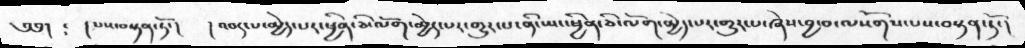༄༅། ༴  །པས་བསྟན་ཏོ་།  །འབད་པ་མྱེད་པར་ཕྱིན་ཅི་ལོག་མྱེད་པར་གྱུར་པ་ནི་ཡང་ཕྱིན་ཅི་ལོག་མྱེད་པར་གྱུར་པ་ཞེས་བྱ་བ་ལསོགས་པས་བསྟན་ཏོ་།
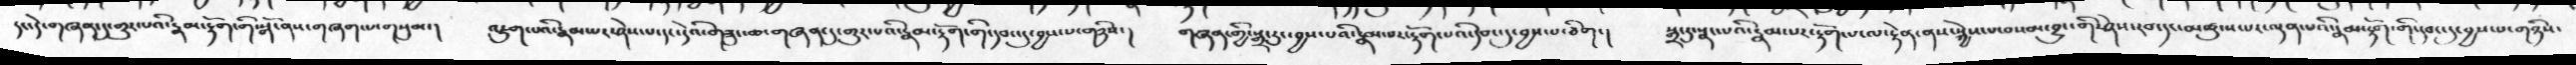དང་དེ་གཞན་དུ་གྱུར་པའི་རྣམ་རྟོག་གི་སྒོ་ནས་གཞག་པ་གསུམ་།   འཇུག་པའི་རྣམ་པར་ཤེས་པ་དང་དེའི་གཟུང་ཆ་གཞན་དུ་གྱུར་པའི་རྣམ་རྟོག་གི་དབང་དུ་བྱས་པ་གཉིས་།  གཞན་གྱི་སྒྲ་རུང་བྱས་པའི་རྣམ་པར་རྟོག་པའི་དབང་དུ་བྱས་པ་ཅིག་།   སྒྲ་རུ་སྣང་པའི་རྣམ་པར་རྟོག་པ་ལ་རྟེན་ནས་སྐྱེས་པ་བསམ་བྱུང་གི་ཤེས་རབ་དང་མཚུངས་པར་ལྡན་པའི་རྣམ་རྟོག་གི་དབང་དུ་བྱས་པ་གཉིས་
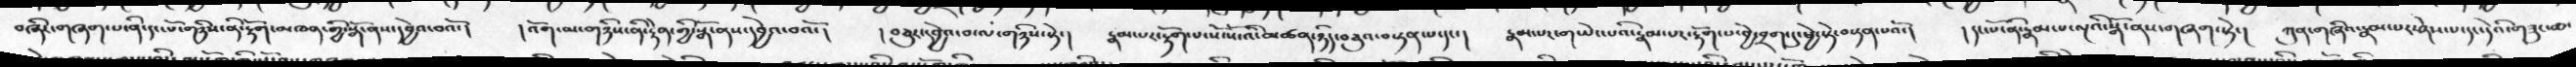བཞིར་གཞག་པ་ནི་དང་པོ་གཉིས་ནི་རྟོག་མཁན་གྱི་སྒོ་ནས་དབྱེའ་བའོ་།   །འོག་མ་གཉིས་ནི་རྟེན་གྱི་སྒོ་ནས་དབྱེའ་བའོ་།   །བཅུར་དབྱེའ་བ་ལ་གཉིས་སྟེ་།  རྣམ་པར་རྟོག་པ་སོ་སོ་འི་མཚན་ཉིད་བཅུའ་བསྟན་པ་དང་།  རྣམ་པར་གཡེང་པའི་རྣམ་པར་རྟོག་པ་བྱེ་བྲག་དུ་ཕྱེ་སྟེ་བསྟན་པའོ་།  །དང་པོ་ནི་རྣམ་པ་ལྔའི་སྒོ་ནས་གཞག་སྟེ་།  ཀུན་གཞིའ་རྣམ་པར་ཤེས་པ་དང་དེའི་གཟུང་ཆ་
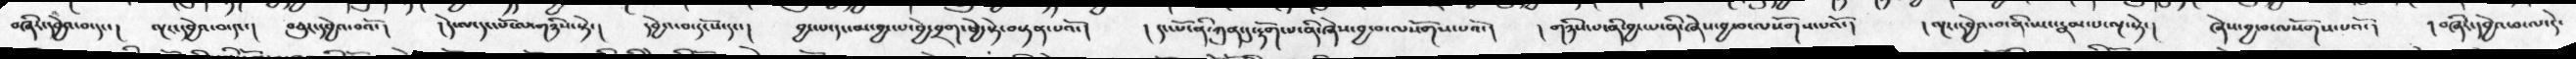བཞིར་དབྱེའ་བ་དང་།  ལྔར་དབྱེའ་བ་དང་།  བཅུར་དབྱེའ་བའོ་།  །དེ་ལ་དང་པོ་ལ་གཉིས་སྟེ་།  དབྱེའ་བ་དང་པོ་དང་།  བྱང་པ་དང་མ་བྱང་པ་བྱེ་བྲག་ཕྱེ་སྟེ་བསྟན་པའོ་།  །དང་པོ་ནི་ཀུན་དུ་རྟོག་པ་ནི་ཞེས་བྱ་བ་ལསོགས་པའོ་།  ། གཉིས་པ་ནི་བྱང་པ་ནི་ཞེས་བྱ་བ་ལསོགས་པའོ་།  །ལྔར་དབྱེའ་བ་ནི་ཡང་རྣམ་པ་ལྔ་སྟེ་།  ཞེས་བྱ་བ་ལསོགས་པའོ་།  །བཞིར་དབྱེའ་བ་ལ་དེ་
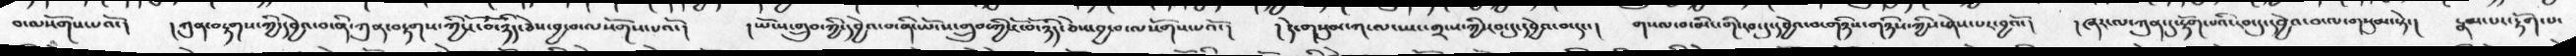བ་ལསོགས་པའོ་།  །ཀུན་བརྟགས་ཀྱི་དབྱེའ་བ་ནི་ཀུན་བརྟགས་ཀྱི་ངོ་བོ་ཉིད་ཅེས་བྱ་བ་ལསོགས་པའོ་།  །ཡོངས་གྲུབ་ཀྱི་དབྱེའ་བ་ནི་ཡོངས་གྲུབ་ཀྱི་ངོ་བོ་ཉིད་ཅེས་བྱ་བ་ལསོགས་པའོ་།   །དེ་གསུམ་ཀ་ལ་ཡང་གྲངས་ཀྱི་དབང་དུ་དབྱེའ་བ་དང་།  གསལ་བ་མིང་གི་རབ་དུ་དབྱེའ་བ་གཉིས་གཉིས་ཀྱིས་ཤེས་པར་བྱའོ་།  །ཞར་ལ་ཀུན་དུ་རྟོག་པའི་རབ་དུ་དབྱེའ་བ་ལ་གསུམ་སྟེ་།  རྣམ་པར་རྟོག་པ་
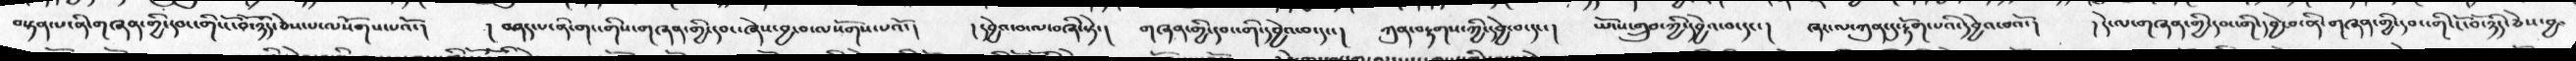བསྟན་པ་ནི་གཞན་གྱི་དབང་གི་ངོ་བོ་ཉིད་ཅེས་པ་ལསོགས་པའོ་།  ། བཤད་པ་ནི་གང་གིས་གཞན་གྱི་དབང་ཞེས་བྱ་བ་ལསོགས་པའོ་།  །དབྱེའ་བ་ལ་བཞི་སྟེ་།  གཞན་གྱི་དབང་གི་དབྱེའ་བ་དང་།  ཀུན་བརྟགས་ཀྱི་དབྱེ་བ་དང་།  ཡོངས་གྲུབ་ཀྱི་དབྱེའ་བ་དང་།  ཞར་ལ་ཀུན་རྟོག་པའི་དབྱེའ་བའོ་།   །དེ་ལ་གཞན་གྱི་དབང་གི་དབྱེ་བ་ནི་གཞན་གྱི་དབང་གི་ངོ་བོ་ཉིད་ཅེས་བྱ་
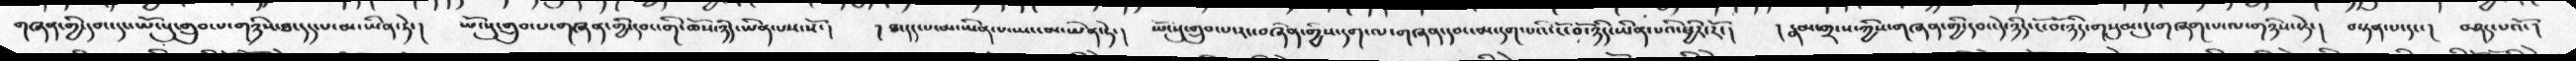གཞན་གྱི་དབང་དང་ཡོངསུ་གྲུབ་པ་གཉིས་ཐ་དད་པ་མ་་ཡིན་ཏེ་།  ཡོངསུ་གྲུབ་པ་གཞན་གྱིདབང་གི་ཆོས་ཉིད་ཡིན་པས་སོ་།   །ཐ་དད་པ་མ་ཡིན་པ་ཡང་མ་ཡིན་ཏེ་།  ཡོངསུ་གྲུབ་པ་རང་བཞིན་གྱིས་དག་ལ་གཞན་དབང་མ་དག་པའི་ངོ་བོ་ཉིད་ཡིན་པའི་ཕྱིར་རོ་།   །རྣམ་གྲངས་ཀྱིས་གཞན་གྱི་དབང་དེ་ཉིད་ངོ་བོ་ཉིད་གསུམ་དུ་གཞག་པ་ལ་གཉིས་སྟེ་།   བསྟན་པ་དང་།    བཤད་པའོ་།
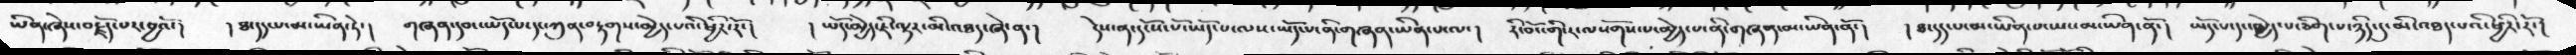ཡིན་ཞེས་བརྗོད་པར་བྱའོ་།   །ཐ་དད་པ་མ་ཡིན་ཏེ་།   གཞན་དབང་ཡོད་པ་དང་ཀུན་བརྟགས་མྱེད་པའི་ཕྱིར་རོ་།   །ཡོད་མྱེད་ཇི་ལྟར་མི་འཐད་ཞེ་ན་།   དེས་ན་དངོས་པོ་ཡོད་པ་ལས་ཡོད་པ་ནི་གཞན་ཡིན་པ་ལ་།  རི་བོང་གི་ར་ལསོགས་པ་མྱེད་པ་ནི་གཞན་མ་ཡིན་ནོ་།   །ཐ་དད་པ་མ་ཡིན་པ་ཡང་མ་ཡིན་ནོ་།   ཡོད་པ་དང་མྱེད་པ་ཅིག་པ་ཉིད་དུ་མི་འཐད་པའི་ཕྱིར་རོ་།
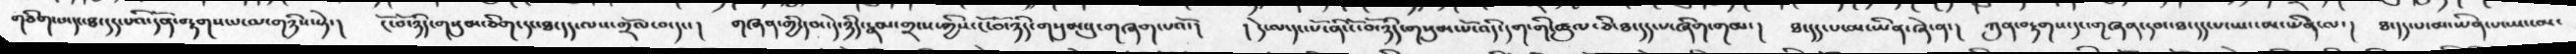གཅིག་པ་དང་ཐ་དད་པའི་དོན་བརྟགས་པ་ལ་གཉིས་སྟེ་།  ངོ་བོ་ཉིད་གསུམ་ཅིག་དང་ཐ་དད་ལས་གྲོལ་བ་དང་།  གཞན་གྱི་དབང་དེ་ཉིད་རྣམ་གྲངས་ཀྱིས་ངོ་བོ་ཉིད་གསུམ་དུ་གཞག་པའོ་།  །དེ་ལ་དང་པོ་ནི་ངོ་བོ་ཉིད་གསུམ་པོ་འདི་དག་གི་ཚུལ་ཅི་ཐ་དད་པ་ཞིག་གམ་།  ཐ་དད་པ་མ་ཡིན་ཞེ་ན་།   ཀུན་བརྟགས་དང་གཞན་དབང་ཐ་དད་པ་ཡང་མ་ཡིན་ལ་།   ཐ་དད་པ་མ་ཡིན་པ་ཡང་མ་
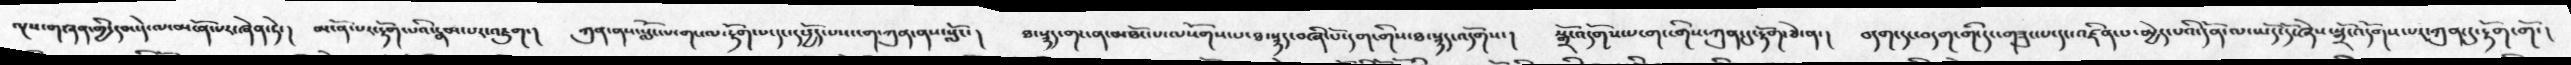ལྔས་གཞན་གྱི་དབང་དེ་ལ་མངོན་པར་ཞེན་ཏེ་།  མངོན་པར་རྟོག་པའི་རྣམ་པར་འཇུག་།   ཀུན་ནས་སློང་པ་གང་ལ་རྟོག་པདང་དཔྱོད་པས་ངག་ཀུན་ནས་སློང་།   ཐ་སྙད་གང་ན་མཐོང་པ་ལསོགས་པ་ཐ་སྙད་བཞི་པོ་དག་གིས་ཐ་སྙད་འདོགས་།  སྒྲོ་འདོགས་པ་གང་གིས་ཀུན་དུ་རྟོག་ཅེ་ན་།  བདག་དང་བདག་གི་དང་གཟུང་པདང་འཛིན་པ་མྱེད་པའི་དོན་ལ་ཡོད་དོ་ཞེས་སྒྲོ་འདོགས་པར་ཀུན་དུ་རྟོག་གོ་།
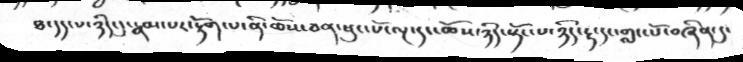ཐ་དད་པ་ཉིད་དུ་རྣམ་པར་རྟོག་པ་ནི་ཆོས་ཅན་ཕུང་པོ་ལྔ་དང་ཆོས་ཉིད་སྟོང་པ་ཉིད་རྟ་དང་གླང་པོ་བཞིན་དུ་
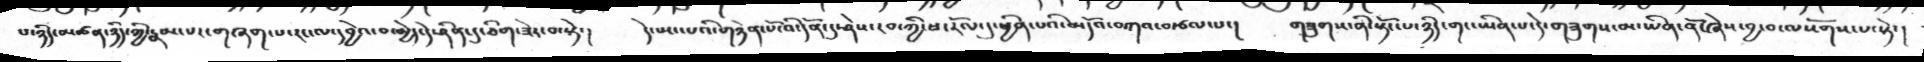པ་ཉིད་མཚན་ཉིད་ཀྱི་རྣམ་པར་གཞག་པ་རང་ལ་དབྱེའ་བ་མྱེད་དེ་ཤིན་དུ་ཅིག་ཟེར་བ་སྟེ་།   དེ་སྤང་པའི་གཉེན་པོ་འི་དོན་དུ་ཤེས་རབ་ཀྱི་ཕ་རོལ་དུ་ཕྱིན་པའི་མདོའ་བཀའ་བརྩལ་པ་།  གཟུགས་ནི་སྟོང་པ་ཉིད་གང་ཡིན་པ་དེ་གཟུགས་མ་ཡིན་ནོ་ཞེས་བྱ་བ་ལསོགས་པ་སྟེ་།
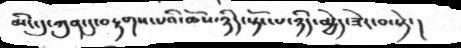མིང་དུ་ཀུན་དུ་བརྟགས་པའི་ཆོས་ཉིད་སྟོང་པ་ཉིད་མྱེད་ཟེར་བ་སྟེ་།
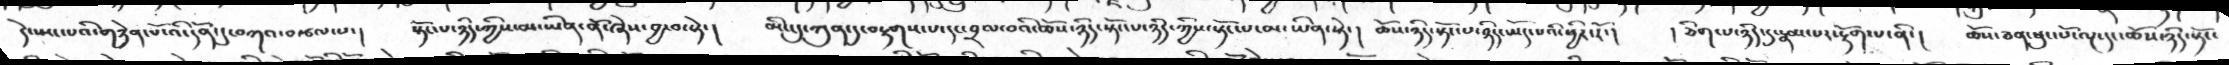དེ་སྤང་པའི་གཉེན་པོ་འི་དོན་དུ་བཀའ་བརྩལ་པ་།   སྟོང་པ་ཉིད་ཀྱིས་མ་ཡིན་ནོ་ཞེས་བྱ་བ་སྟེ་།   མིང་དུ་ཀུན་དུ་བརྟགས་པ་དང་བྲལ་བའི་ཆོས་ཉིད་སྟོང་པ་ཉིད་ཀྱིས་སྟོང་པ་མ་ཡིན་སྟེ་།  ཆོས་ཉིད་སྟོང་པ་ཉིད་ཡོད་པའི་ཕྱིར་རོ་།  །ཅིག་པ་ཉིད་དུ་རྣམ་པར་རྟོག་པ་ནི་།   ཆོས་ཅན་ཕུང་པོ་ལྔ་དང་ཆོས་ཉིད་སྟོང་
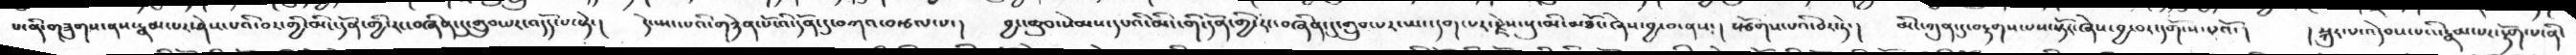པ་ནི་གཟུགས་ནས་རྣམ་པར་ཤེས་པའི་བར་གྱི་མིང་དོན་གྱི་རང་བཞིན་དུ་གྲུབ་པར་འདོད་པ་སྟེ་།   དེ་སྤང་པའི་གཉེན་པོ་འི་དོན་དུ་བཀའ་བརྩལ་པ་།  བྱང་ཆུབ་སེམས་དཔའི་མིང་གི་དོན་གྱི་རང་བཞིན་དུ་་གྲུབ་པར་ཡང་དག་པར་རྗེས་སུ་མི་མཐོང་ཞེས་བྱ་བ་ནས་།  སྩོགས་པའི་བར་ཏེ་།  མིང་ཀུན་དུ་བརྟགས་པས་སྟོང་ཞེས་བྱ་བར་དགོངས་པའོ་།   །སྐུར་པ་འདེབས་པའི་རྣམ་པར་རྟོག་པ་ནི་
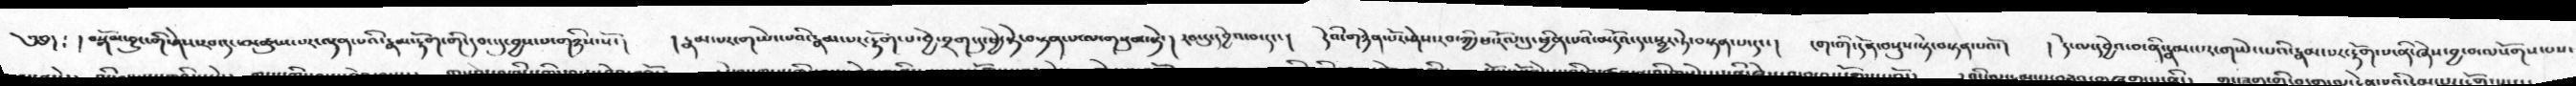༄༅། ༴ ། བསྒོམ་བྱུང་གི་ཤེས་རབ་དང་མཚུངས་པར་ལྡན་པའི་རྣམ་རྟོག་གི་དབང་དུ་བྱས་པ་གཉིས་སོ་།  །རྣམ་པར་གཡེང་པའི་རྣམ་པར་རྟོག་པ་བྱེ་བྲག་དུ་ཕྱེ་སྟེ་བསྟན་པ་ལ་གསུམ་སྟེ་།  རབ་དུ་དབྱེའ་བ་དང་།  དེའི་གཉེན་པོར་ཤེས་རབ་ཀྱི་ཕ་རོལ་དུ་ཕྱིན་པའི་མདོའ་དང་སྦྱར་ཏེ་བསྟན་པ་དང་།  ངག་གི་དོན་བསྡུས་སྟེ་བསྟན་པའོ་།  ། དེ་ལ་དབྱེའ་བ་ནི་རྣམ་པར་གཡེང་པའི་རྣམ་པར་རྟོག་པ་ནི་ཞེས་བྱ་བ་ལསོགས་པས་
